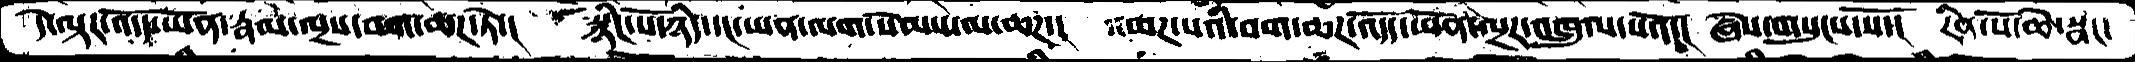དེ་ལྟར་འོད་ཡོན་རྣམ་ལྔས་བག་ཆཌ་ཏེ་།  སྙིང་པོ་ཉིད་དང་ཡན་ལག་སེམས་ལ་ཆཌ་།  ཆཌ་པའི་བག་ཆཌ་འདོད་ཡོན་ལྔར་འཁྲུལ་པའོ་།  ཞེས་གསུངས་སོ་།  རིན་པོ་ཆེ་སྣང་
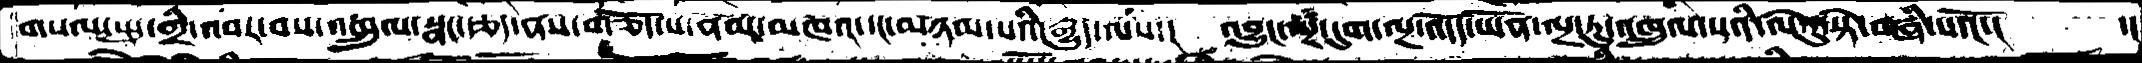གསལ་སྤུ་གྲི་འབར་བས་འཁྲུལ་སྣང་རྩད་ནས་གཅོད་པ་ནམ་མཁའ་དང་མཉམ་པའི་རྒྱུད་ལས་།  འབྱུང་ལྔ་དུག་ལྔ་འདོད་ཡོན་ལྔ་རུ་འཁྲུལ་པའི་ལེའུ་སྟེ་བཞི་པའོ་།   ་།
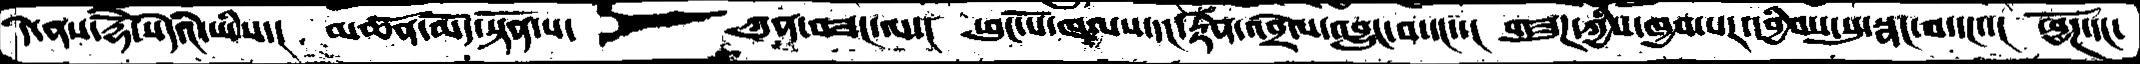དེ་ནས་རྡོེ་སེདཾའ་ཡིས་།  མཚན་མོད་སྟོན་པ་    ཀུན་བཟང་ལ་།  ཕུང་པོ་ཁམས་དང་རྟེན་འབྲེལ་འབྱུང་བ་དང་།  གཟུཌ་ཀྱིས་ཁྱབ་པར་དབྱིབས་སུ་སྣང་བ་དང་་།  ཕྱོཌ་དང་
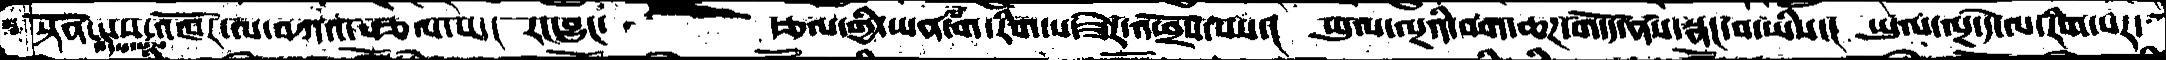སྟོན་པས་འཁོར་ལ་བཀའ་སྩལ་པ་། རང་བྱུང་     རྩལ་གྱི་ཡན་ལག་རིག་པ་ཟེར་འཕྲོས་པས་། ཡུལ་ལྔའི་བག་ཆཌ་གདོད་ནས་སྣང་བ་ཡིས་། ཡུལ་ལྔ་དེ་ལ་རིག་པར་
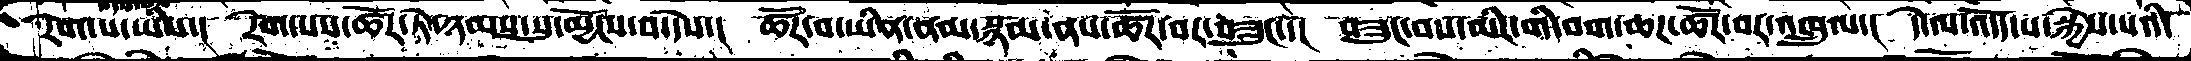རེག་པ་ཡིས་། རེག་པས་ཚོར་ཏེ་ཉམས་སུ་མྱོངས་བ་དེས་། ཚོར་བ་ཡིན་ནམ་སྙམ་ནས་ཚོར་བར་བཟུང་་། བཟུང་བས་མིང་གི་བག་ཆཌ་ཚོར་བར་འཁྲུལ་། དེ་ལ་འདོད་པ་སྐྱེས་པའི་
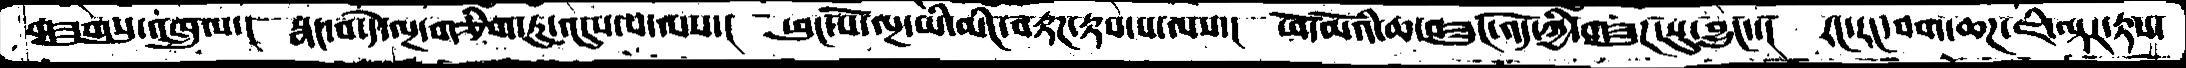གཟུགསུ་འཁྲུལ་།  སྣང་བ་དེ་ལྔ་གཅིག་ཏུ་འདུས་པ་ལས་།  ཕུང་པོ་ལྔ་ཡི་མིང་བརྟཌ་རྟས་པ་ལས་།  ཕོ་མོའི་ཆ་བཟུང་འདོ་ཀྱི་གཟུཌ་སུ་བྱུང་་།  རང་རང་བག་ཆཌ་ཇི་ལྟར་རྟས་
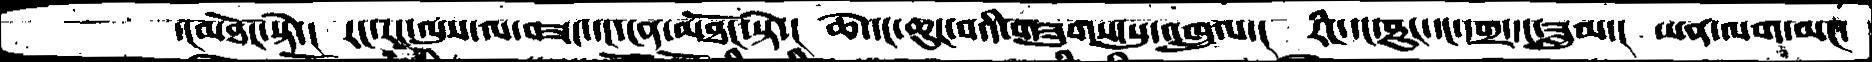་།མཐོང་སྟེ་།  རང་རང་ལུས་ལ་བཟང་དང་ངན་མཐོང་སྟེ་།  ཆེ་དང་ཆུང་བའི་གཟུགས་སུ་འཁྲུལ་།  རིང་དང་ཐུང་དང་དགྲ་དང་ཟླུམ་།  ཡན་ལག་མང་
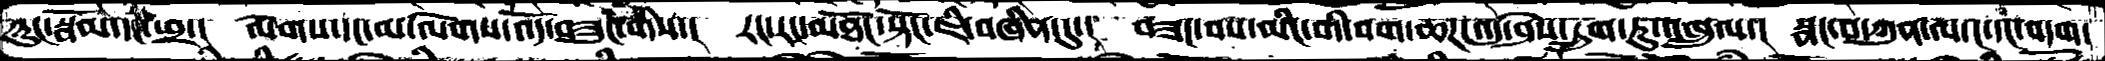ཉུང་སྦོམ་དང་ཕྲ་།  ལེགས་དང་མ་ལེགས་འོད་བཟུང་གིས་།  རང་རང་མཐོང་སྟོང་ཇི་བཞིན་དུ་།  བཟང་བས་མིང་གི་བག་ཆཌ་འདུ་ཤེས་དྲུག་རུ་འཁྲུལ་།  སྣང་བ་ཀུན་ལ་ང་དང་བདག་
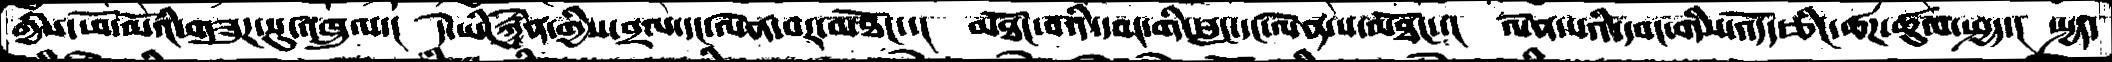གྱིས་ཕོ་མོའི་གཟུཌ་སུ་འཁྲུལ་།  དེ་ཡི་རྐྱེན་གྱིས་བྲལ་དང་ལེན་པར་མཐོང་་།  མཐོང་བའི་དབང་གི་བླང་དང་ལེན་པ་མཐོང་་།  ལེན་པའི་དབང་གིས་འདོད་ཅིང་ཚཌ་ཚུལ་སྤྱད་།  སྤྱད་
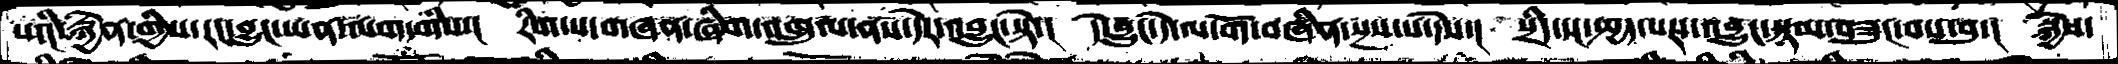པའི་རྐྱེན་གྱིས་རང་བྱུང་ཡན་ལག་གིས་།  རིག་པ་གཞན་ཞིག་འཁྲུལ་ནས་དེར་འབྱུང་སྟེ་།  དེ་བྱུང་དེ་ལ་གོ་བཞིན་སྔས་པ་དེས་།  སྲིད་དང་སྤྱད་པས་འབྱུང་སྙམ་བཟུང་བས་སུ་།  སྐྱེས་
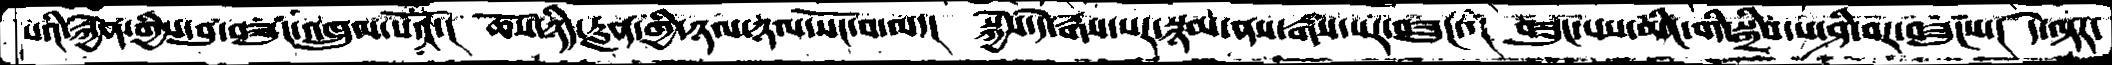པའི་རྐྱེན་གྱིས་བུ་བཟུང་འཁྲུལ་པའོ་།  ཆོས་ཉིད་རླན་གྱི་ཉལ་ཉལ་སོང་བ་ལ་།  སྐྱེས་དེ་རྒས་པར་སྙམ་ནས་རྒས་པར་བཟུང་་།  བཟུང་པས་མིང་གི་སྒྲིབ་པ་ཤི་བར་བཟུངས་།  དེ་ལྟར་
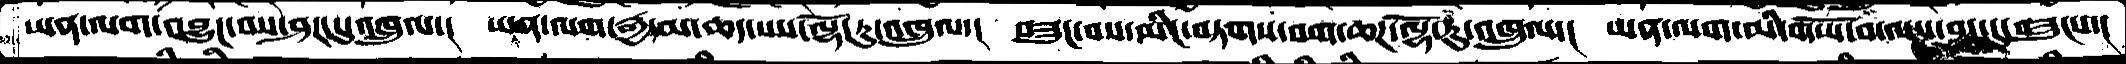ཡན་ལག་འབྱུང་བས་ཤར་དུ་འཁྲུལ་།  ཡན་ལག་རྒྱ་མ་ཆད་པས་ལྷོ་རུ་འཁྲུལ་།  བཟུང་བས་མིང་བཏགས་བག་ཆཌ་ལྷོ་རུ་འཁྲུལ་།  ཡན་ལག་མི་གཡོ་བ་ལས་མང་དུ་བཟུངས་།
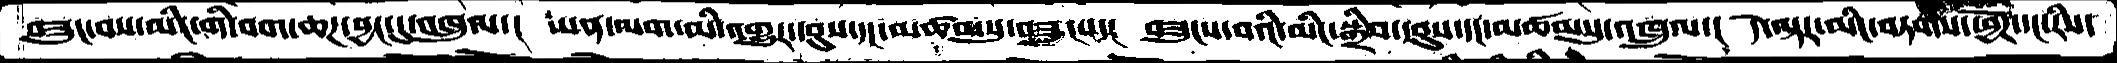བཟུང་བས་མིང་གི་བག་ཆཌ་བྱང་དུ་འཁྲུལ་།  ཡན་ལག་མི་འགྱུར་དབུས་དང་མཚམསུ་བཟུངས་།  བཟུངས་བའི་མིང་སྒྲིབ་དབུས་དང་མཚམསུ་འཁྲུལ་།  དེ་ལྟར་མིང་བཏགས་ཕྱོཌ་དང་རིས་
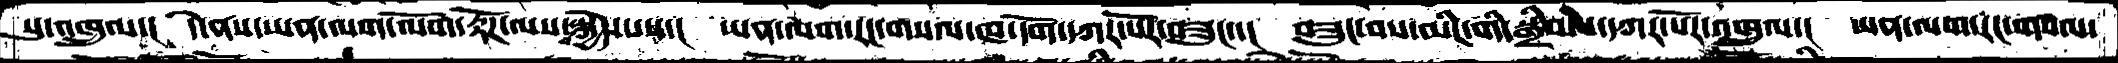སུ་འཁྲུལ་།  དེ་ནས་ཡན་ལག་ལོག་རྟོཌ་ལས་སྐྱེས་པས་།  ཡན་ལག་རང་གསལ་ཁ་དོག་དཀར་པོར་བཟུང་་།  བཟུང་བས་མིང་གི་སྒྲིབ་པ་དཀར་པོར་འཁྲུལ་།  ཡན་ལག་རང་གསལ་
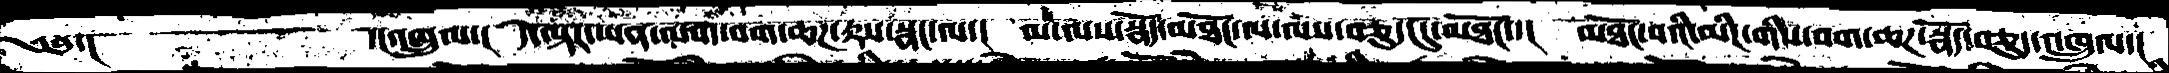༄༅་།     ་།འཁྲུལ་།  དེ་ལྟར་ཡན་ལག་བག་ཆཌ་རྟས་སྣང་ལ་།  ལ་ལས་སྣོད་མཐོང་ལ་ལས་བཅུད་དུ་མཐོང་་།  མཐོང་བའི་མིང་གིས་བག་ཆཌ་སྣོད་བཅུད་འཁྲུལ་།
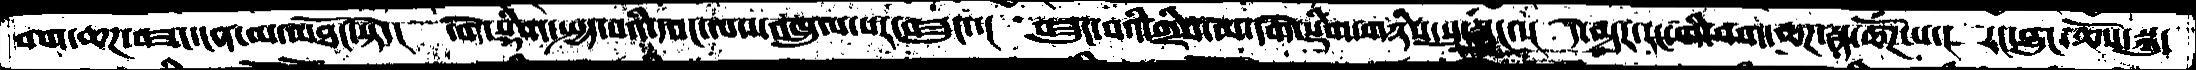བག་ཆཌ་བཟང་ངན་མ་མཐོང་སྟེ་།  དགེ་སྡིག་སྤྱད་པའི་དབང་ལས་འཁྲུལ་པར་བཟུང་་།  བཟུང་བའི་གྲིབ་མ་དགེ་སྡིག་གཉིས་སུ་བྱུང་་།  དེ་ལྟར་རང་གི་བག་ཆཌ་སྣ་ཚོཌ་པ་།  རང་བྱུང་ཆོས་སྐུ་
